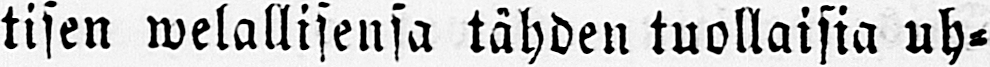tisen welallisensa tähden tuollaisia uh-
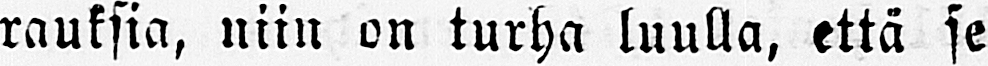rauksia, niin on turha luulla, että se
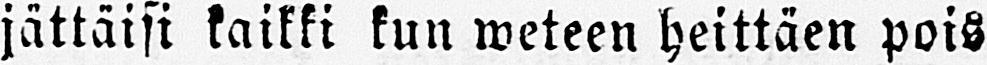jättäisi kaikki kun weteen heittäen pois
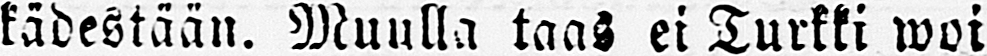kädestään. Muulla taas ei Turkki woi
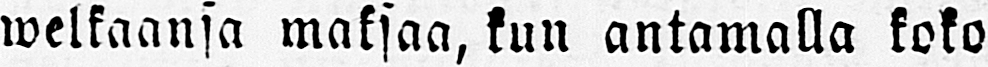welkaansa maksaa, kun antamalla koko
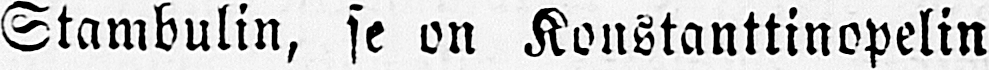Stambulin, se on Konstanttinopelin
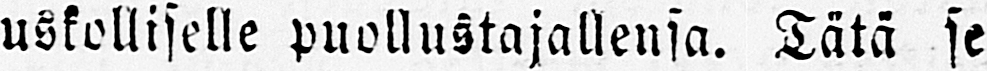uskolliselle puollustajallensa. Tätä se
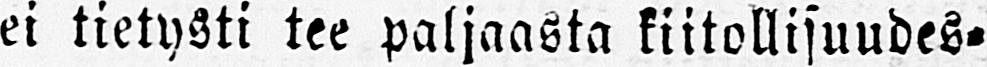ei tietysti tee paljaasta kiitollisuudes-
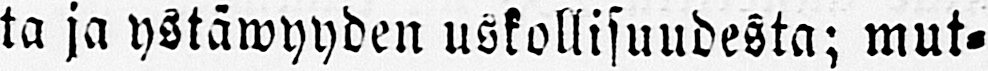ta ja ystäwyyden uskollisuudesta; mut-
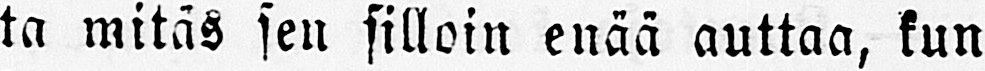ta mitäs sen silloin enää auttaa, kun
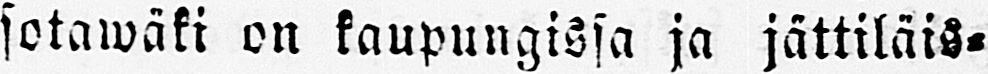sotawäki on kaupungissa ja jättiläis-
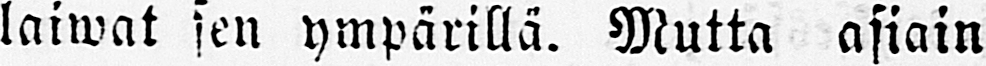laiwat sen ympärillä. Mutta asiain
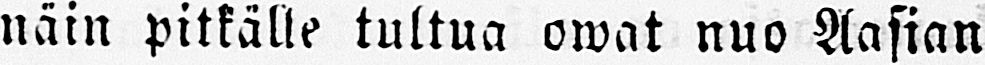näin pitkälle tultua owat nuo Aasian
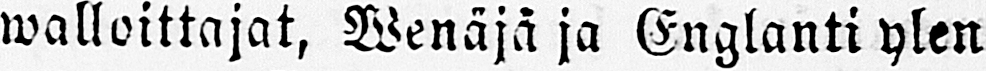walloittajat, Venäjä ja Englanti ylen
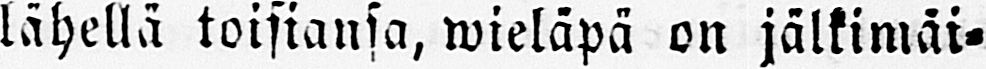lähellä toisiansa, wieläpä on jälkimäi-
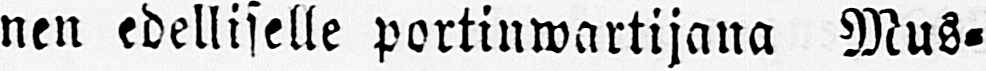nen edelliselle portinwartijana Mus-
